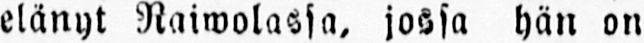elänyt Raiwolassa, jossa hän on
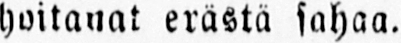hoitanut erästä sahaa.
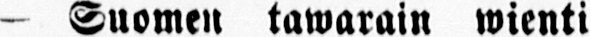— Suomen tawarain wienti
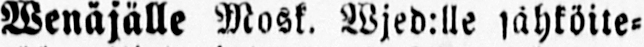Wenäjälle Mosk. Wjed:lle sähköite-
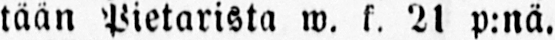tään Pietarista w. k. 21 p:nä.
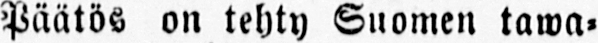Päätös on tehty Suomen tawa-
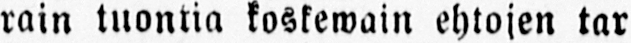rain tuontia koskewain ehtojen tar
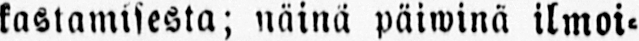kastamisesta; näinä päiwinä ilmoi-
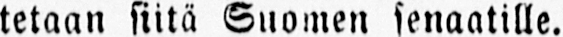tetaan siitä Suomen senaatille.
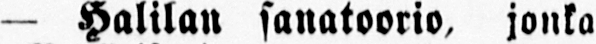— Halilan sanatoorio, jonka
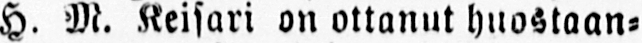H. M. Keisari on ottanut huostaan-
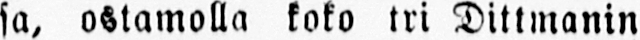sa, ostamalla koko tri Dittmanin
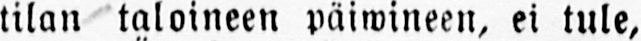tilan taloineen paiwineen, ei tule,
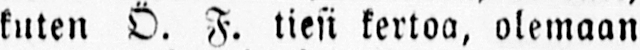kuten Ö. F. tiesi kertoa, olemaan
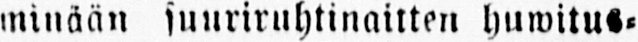minään suuriruhtinaitten huwitus-
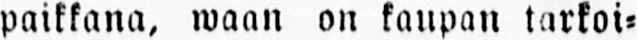paikkana, waan on kaupan tarkoi-
